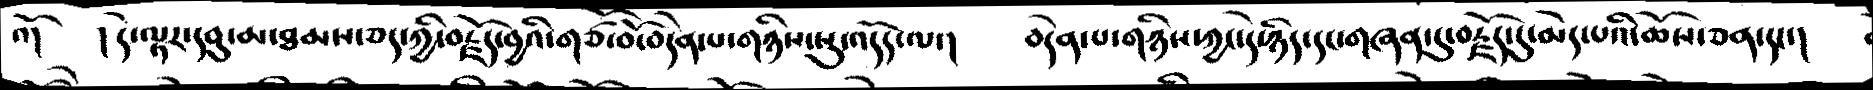འོ།   །དེ་ལྟར་དབུ་མ་ཐམས་ཅད་ཀྱི་བརྗོད་བྱའི་གཙོ་བོ་བདེན་པ་གཉིས་སུ་འདོད་ལ་།   བདེན་པ་གཉིས་ཀྱང་དེ་ཉིད་དང་གཞན་དུ་བརྗོད་དུ་མེད་པའི་ཆོས་ཅན་དང་།
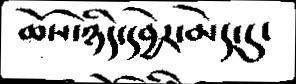ཆོས་ཉིད་དབྱེར་མེད་དུ་
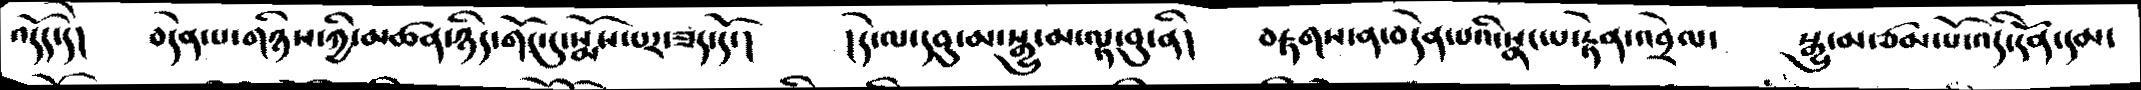འདོད་དེ།   བདེན་པ་གཉིས་ཀྱི་མཚན་ཉིད་གོང་དུ་སྨོས་པར་ཟད་དོ་།   །དེ་ལ་དབུ་མ་སྒྱུ་མ་ལྟ་བུ་ནི།   བརྟགས་ན་བདེན་པའི་སྣང་པ་རྟེན་འབྲེལ་   སྒྱུ་མ་ཙམ་པོ་འདི་དོན་དམ་
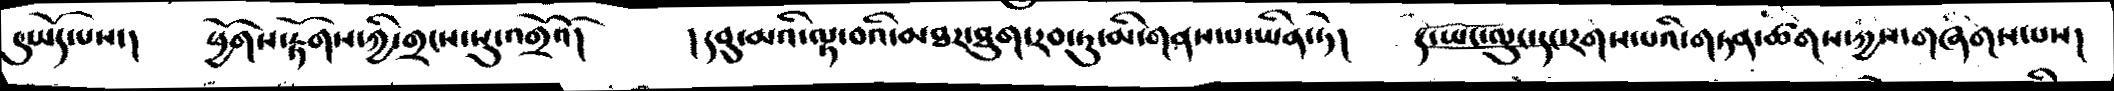དུ་ཡོད་པས་།   ཕྱོགས་རྟོགས་ཀྱི་གྲངས་སུ་འགྲོའོ།   །དབུ་མའི་ལྟ་བའི་མཐར་ཐུག་རབ་ཏུ་མི་གནས་པ་ཡིན་ཏེ།   ད་ཡང་ལུང་དང་རགས་པའི་གཏན་ཚིགས་ཀྱིས་གཞིགས་པས།
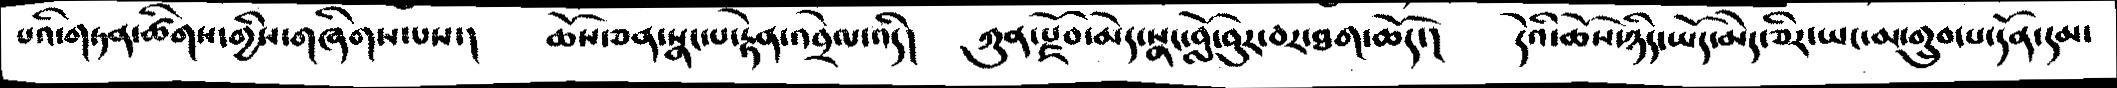པའི་གཏན་ཚིགས་གྱིས་གཞིགས་པས་།    ཆོས་ཅན་སྣང་པ་རྟེན་འབྲེལ་འདི།   ཀུན་རྫོབ་མེད་སྣང་བློ་བུར་བར་ཐག་ཆོད་།   དེའི་ཆོས་ཉིད་ཡོད་མེད་ཅིར་ཡང་མ་གྲུབ་པ་དོན་དམ་
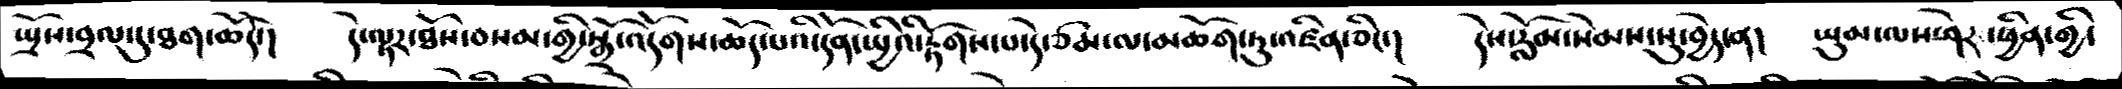སྤྲོས་བྲལ་དུ་ཐོག་ཆོདེེ་།   དེ་ལྟར་ཐོས་བསམ་གྱི་སྒྲོ་འདོགས་ཆོད་པའི་དོན་སྤྱིའི་རྟོགས་པ་དེ་ཙམ་ལ་མཆོག་ཏུ་འཛིན་ཅིང་།   དེས་རློམ་སེམས་སུ་བྱེད་ན།   ཡུམ་ལས་ཤེར་ཕྱིན་གྱི་
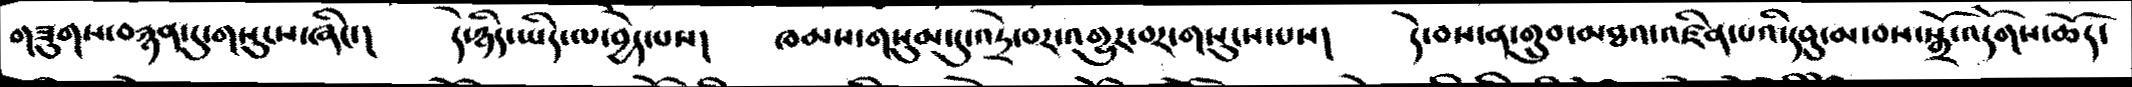གཟུགས་བརྙན་དུ་གསུངས་ཞིང་།   དེ་ཉིད་ཡིད་ལ་བྱེད་པས།   ཁམས་གསུམ་དུ་འདྲེ་བར་འགྱུར་བར་གསུངས་པས།   དེ་བས་ན་གྲུབ་མཐའ་འཛིན་པའི་དབུ་མ་བས་སྒྲོ་འདོགས་ཆོད་
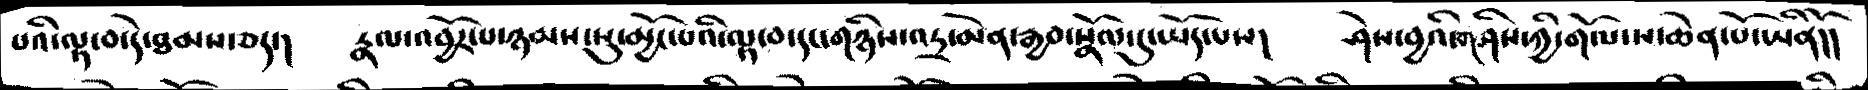པའི་ལྟ་བ་དེ་ཐམས་ཅད་།   རྣལ་འབྱོར་པ་ཉམས་སུ་མྱོང་པའི་ལྟ་བ་དང་གཉིས་འདྲ་མེན་རྒྱབ་སྣོལ་དུ་ཡོད་པས།   ཤེས་བྱའི་གཤིས་ཀྱི་གོལ་ས་ཆེན་པོ་ཡིནོ།།
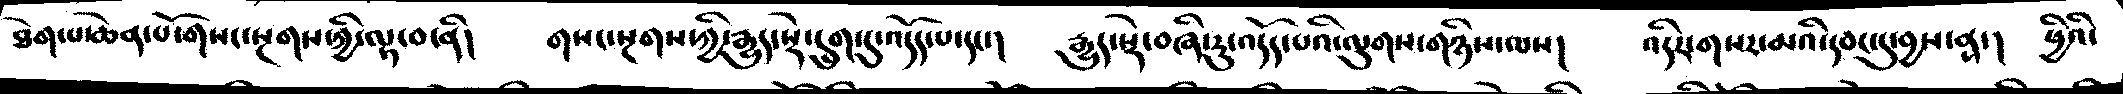ཐེག་པ་ཆེན་པོ་གསང་སྔགས་ཀྱི་ལྟ་བ་ནི།  གསང་སྔགས་ཀྱི་རྒྱུད་སྡེ་དྲུག་དུ་འདོད་པ་དང་།   རྒྱུད་སྡེ་བཞི་རུ་འདོད་པའི་ལུགས་གཉིས་ལས།   འདིར་གསར་མའི་དབང་དུ་བྱས་ནས་།   ཕྱིའི་
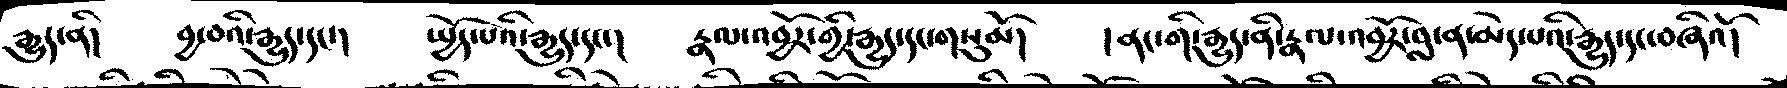རྒྱུད་ནི།  བྱ་བའི་རྒྱུད་དང་།   སྤྱོད་པའི་རྒྱུད་དང་།   རྣལ་འབྱོར་གྱི་རྒྱུད་དང་གསུམོ།  །ནང་གི་རྒྱུད་ནི་རྣལ་འབྱོར་བླ་ན་མེད་པའི་རྒྱུད་དང་བཞིའོ།
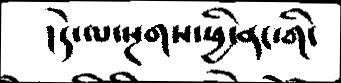།དེ་ལ་སྔགས་ཕྱི་ནང་གི་
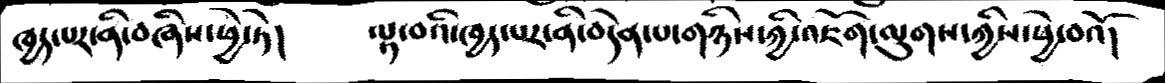ཁྱད་པར་ནི་བཞིས་ཕྱེ་ཏེ།   ལྟ་བའི་ཁྱད་པར་ནི་བདེན་པ་གཉིས་ཀྱི་འཇོག་ལུགས་ཀྱིས་ཕྱེ་བའོ།
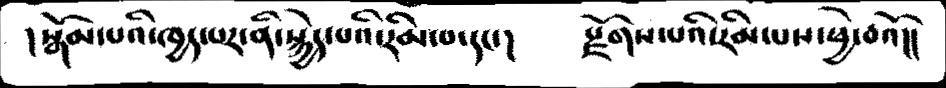།སྒོམ་པའི་ཁྱད་པར་ནི་སྐྱེད་པའི་རིམ་པ་དང་།   རྫོགས་པའི་རིམ་པས་ཕྱེ་བའོ།།
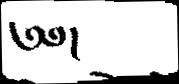༄༅།
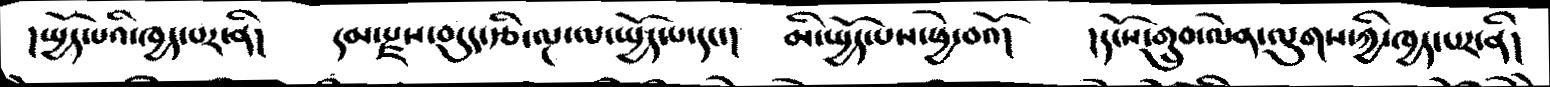།སྤྱོད་པའི་ཁྱད་པར་ནི།   དམ་རྫས་བདུད་རྩི་ལྔ་ལ་སྤྱོད་པ་དང་།   མི་སྤྱོད་པས་ཕྱེ་བའོ།   །དངོས་གྲུབ་ལེན་ལུགས་ཀྱི་ཁྱད་པར་ནི།
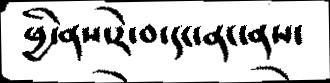ཕྱི་ནས་རེ་བ་དང་ནང་ནས་
